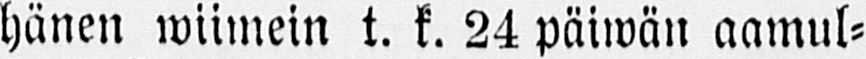hänen wiimein t. k. 24 päiwän aamul-
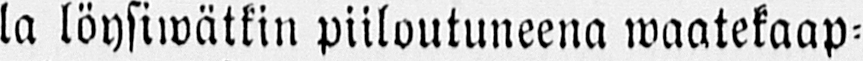la löysiwätkin piiloutuneena waatekaap-
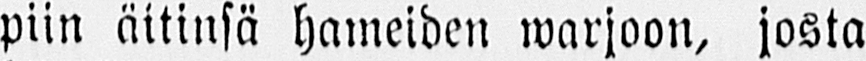piin äitinsä hameiden warjoon, josta
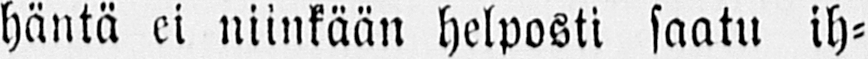häntä ei niinkään helposti saatu ih-
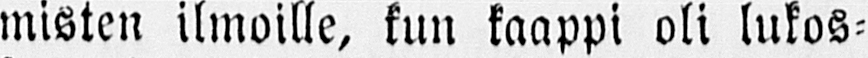misten ilmoille, kun kaappi oli lukos-
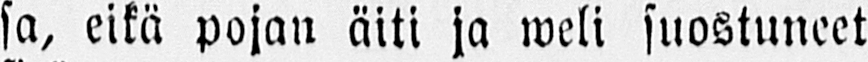sa, eikä pojan äiti ja weli suostuneet
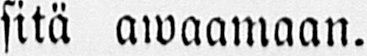sitä awaamaan.
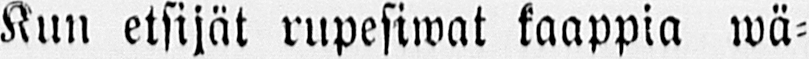Kun etsijät rupesiwat kaappia wä-
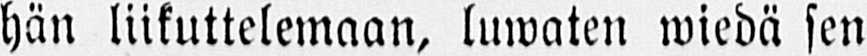hän liikuttelemaan, luwaten wiedä sen
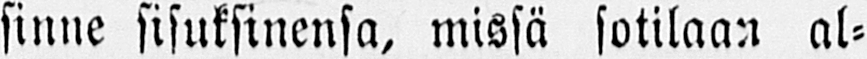sinne sisuksinensa, missä sotilaan al-
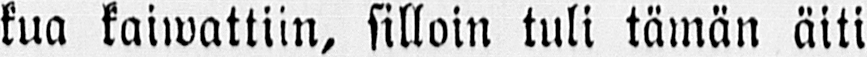kua kaiwattiin, silloin tuli tämän äiti
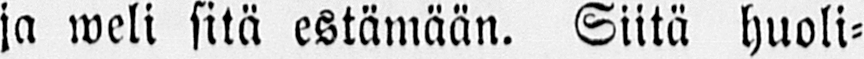ja weli sitä estämään. Siitä huoli-
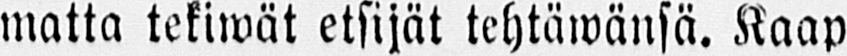matta tekiwät etsijät tehtäwänsä. Kaap
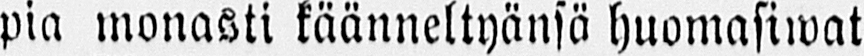pia monasti käännettyänsä huomasiwat
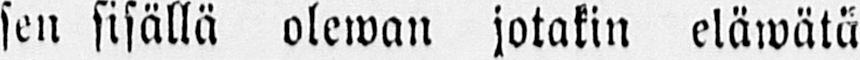sen sisällä olewan jotakin eläwätä
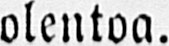olentoa.
